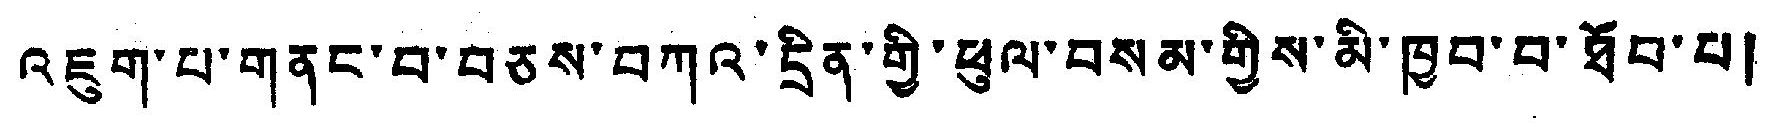འཇུག་པ་གནང་བ་བཅས་བཀའ་དྲིན་གྱི་ཕུལ་བསམ་གྱིས་མི་ཁྱབ་བ་ཐོབ་པ།
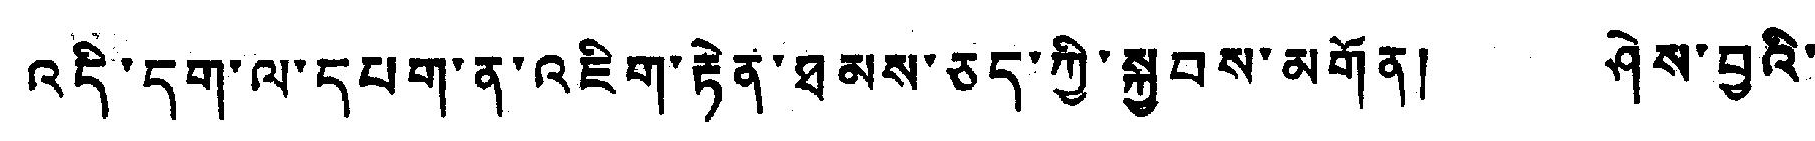འདི་དག་ལ་དཔག་ན་འཇིག་རྟེན་ཐམས་ཅད་ཀྱི་སྐྱབས་མགོན། ཤེས་བྱའི་
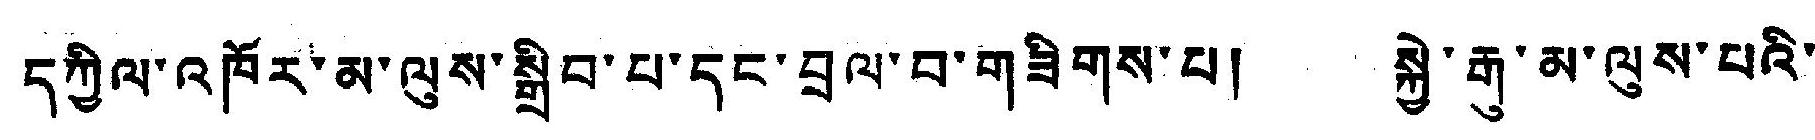དཀྱིལ་འཁོར་མ་ལུས་སྒྲིབ་པ་དང་བྲལ་བ་གཟིགས་པ། སྐྱེ་རྒུ་མ་ལུས་པའི་
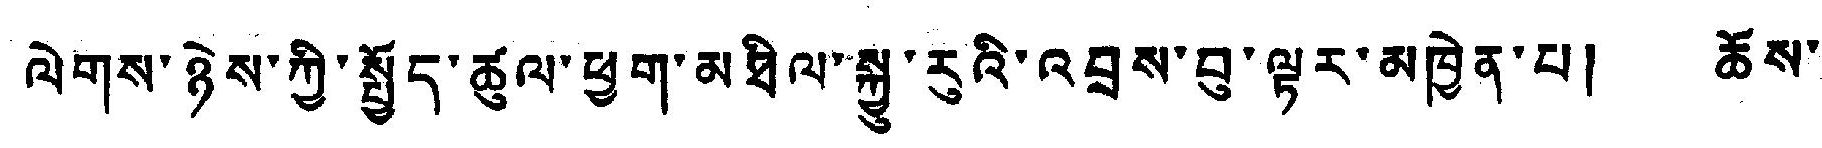ལེགས་ཉེས་ཀྱི་སྤྱོད་ཚུལ་ཕྱག་མཐིལ་སྐྱུ་རུའི་འབྲས་བུ་ལྟར་མཁྱེན་པ། ཆོས་
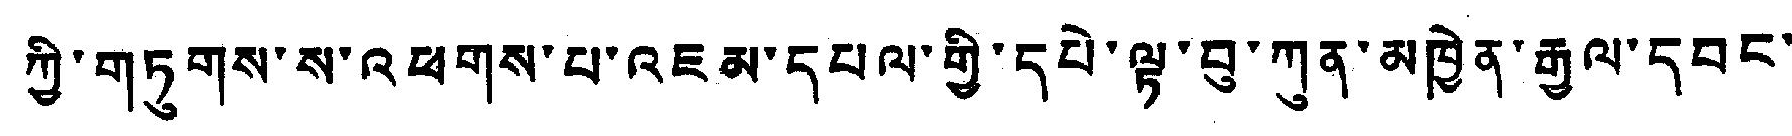ཀྱི་གཏུགས་ས་འཕགས་པ་འཇམ་དཔལ་གྱི་དཔེ་ལྟ་བུ་ཀུན་མཁྱེན་རྒྱལ་དབང་་
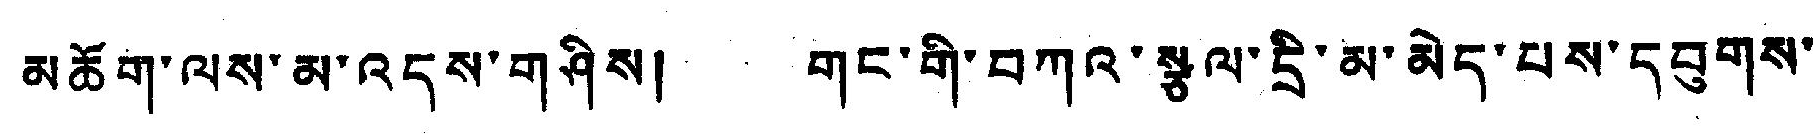མཆོག་ལས་མ་འདས་གཤིས། གང་གི་བཀའ་སྩལ་དྲི་མ་མེད་པས་དབུགས་
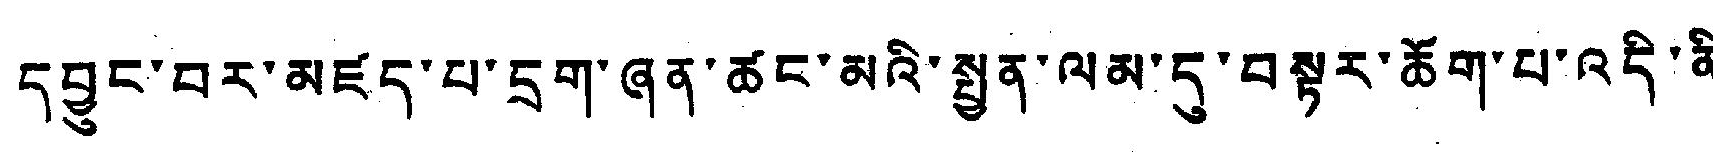དབྱུང་བར་མཛད་པ་དྲག་ཞན་ཚང་མའི་སྤྱན་ལམ་དུ་བསྟར་ཆོག་པ་འདི་ནི།
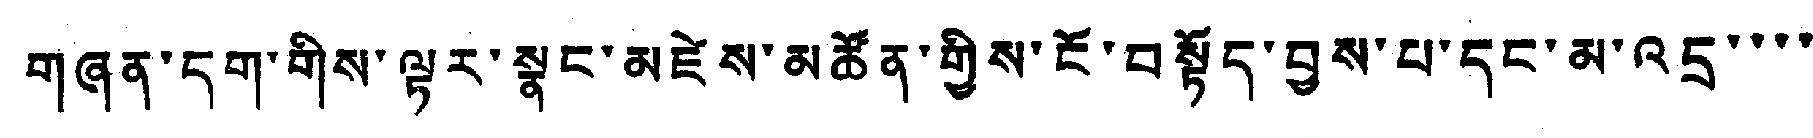གཞན་དག་གིས་ལྟར་སྣང་མཛེས་མཚོན་གྱིས་ངོ་བསྟོད་བྱས་པ་དང་མ་འདྲ་་་་
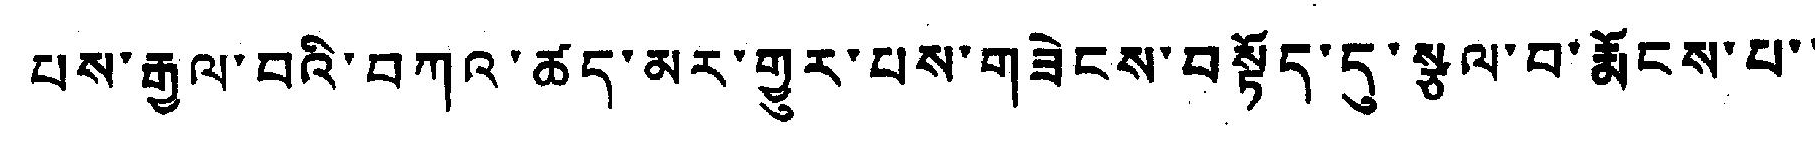པས་རྒྱལ་བའི་བཀའ་ཚད་མར་གྱུར་པས་གཟེངས་བསྟོད་དུ་སྩལ་བ་རྨོངས་པ་་
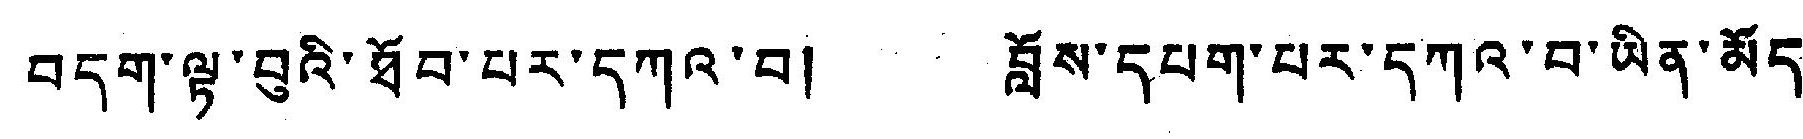བདག་ལྷ་བུའི་ཐོབ་པར་དཀའ་བ། སློས་དཔག་པར་དཀའ་བ་ཡིན་མོད་
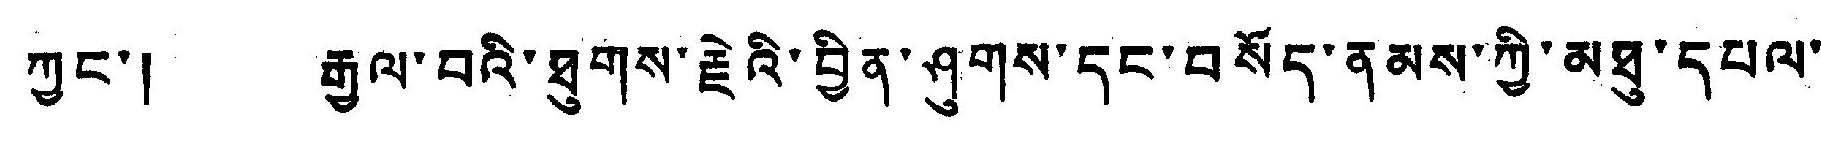ཀྱང་། རྒྱལ་བའི་ཐུགས་རྗེའི་བྱིན་ཤུགས་དང་བསོད་ནམས་ཀྱི་མཐུ་དཔལ་
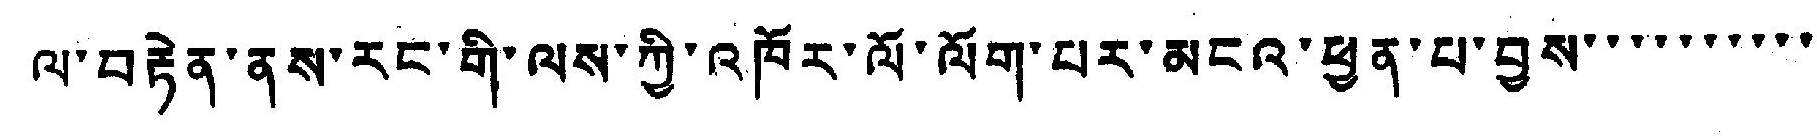ལ་བརྟེན་ནས་རང་གི་ལས་ཀྱི་འཁོར་ལོ་ལོག་པར་མངའ་ཕྱན་པ་བྱས་་་་་་་་་་
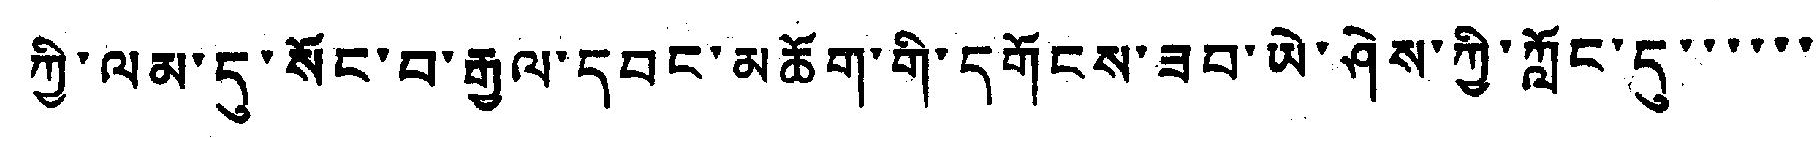ཀྱི་ལམ་དུ་སོང་བ་རྒྱལ་དབང་མཆོག་གི་དགོངས་ཟབ་ཡེ་ཤེས་ཀྱི་ཀློང་དུ་་་་་་
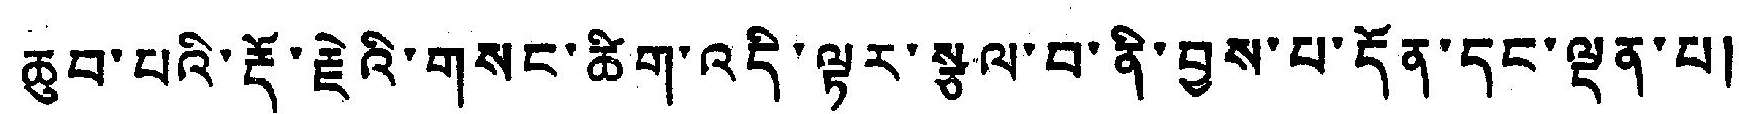ཆུབ་པའི་རྡོ་རྗེའི་གསང་ཚིག་འདི་ལྟར་སྩལ་བ་ནི་བྱས་པ་དོན་དང་ལྡན་པ།
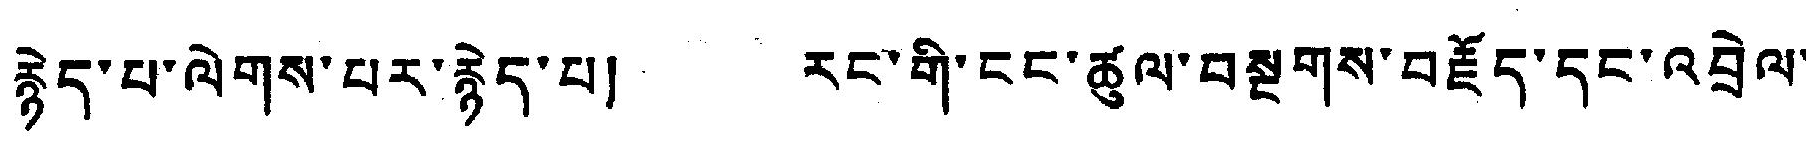རྟེད་པ་ལེགས་པར་རྙེད་པ། རང་གི་ངང་ཚུལ་བསྔགས་བརྗོད་དང་འབྲེལ་
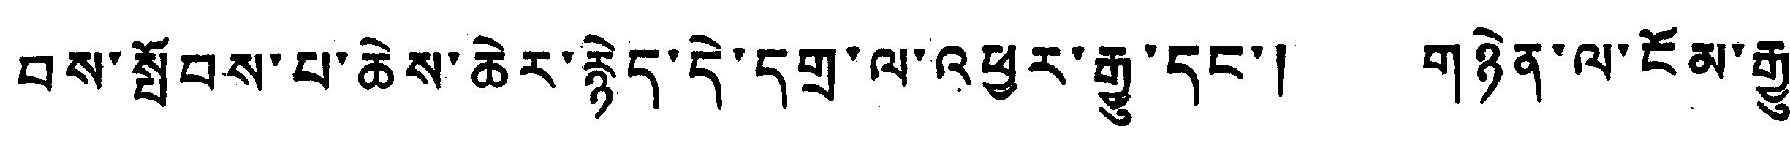བས་སློབས་པ་ཆེས་ཆེར་རྙེད་དེ་དགྲ་ལ་འཕྱར་རྒྱུ་དང་། གཉེན་ལ་ངོམ་རྒྱུ་
